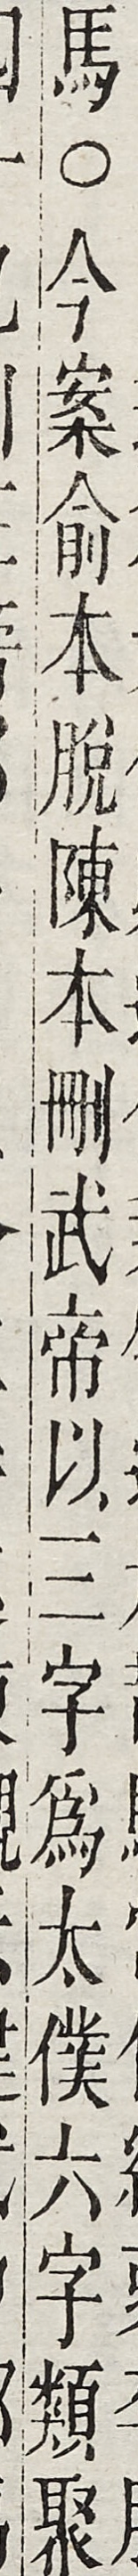馬○今案俞本脫陳本刪武帝以三字為太僕六字類聚
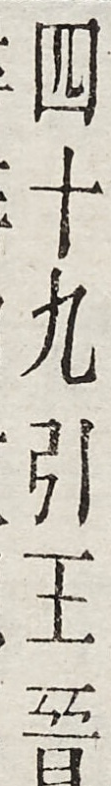四十九引王晉
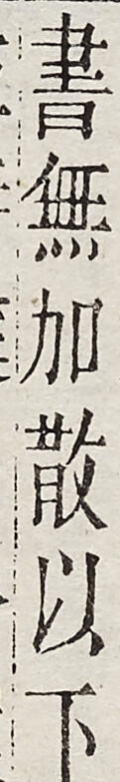書無加散以下
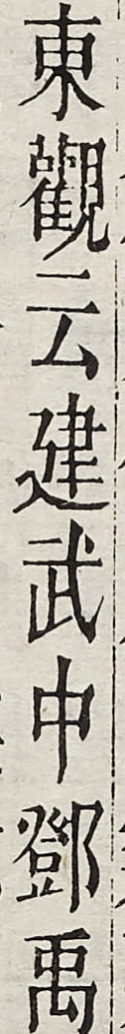東觀雲建武中鄧禹
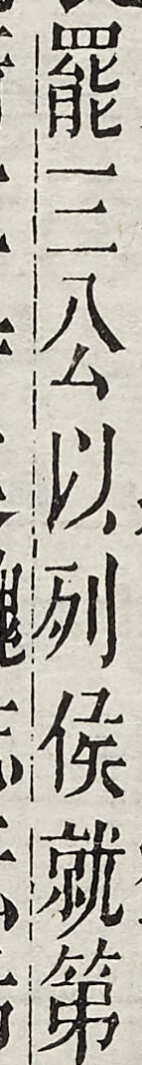罷三公以列侯就第
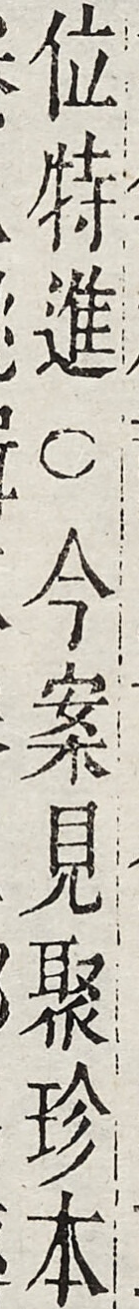位特進○今案見聚珍本
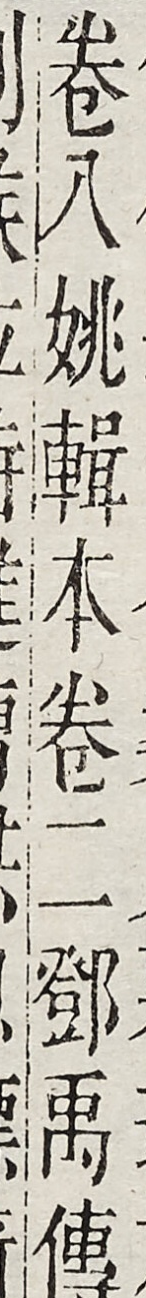卷八姚輯本卷二鄧禹傳
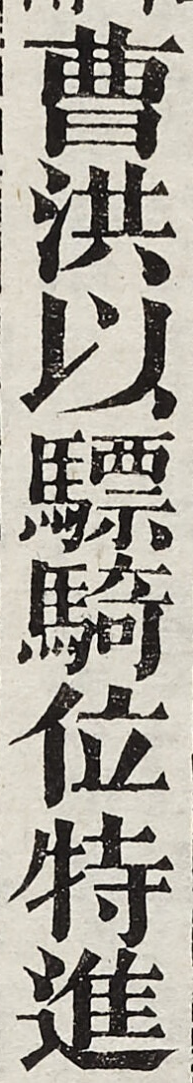曹洪以驃騎位特進
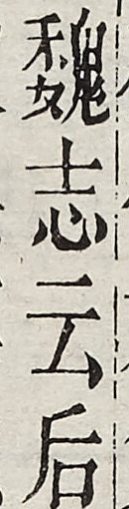魏志云後
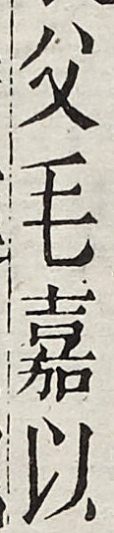父毛嘉以
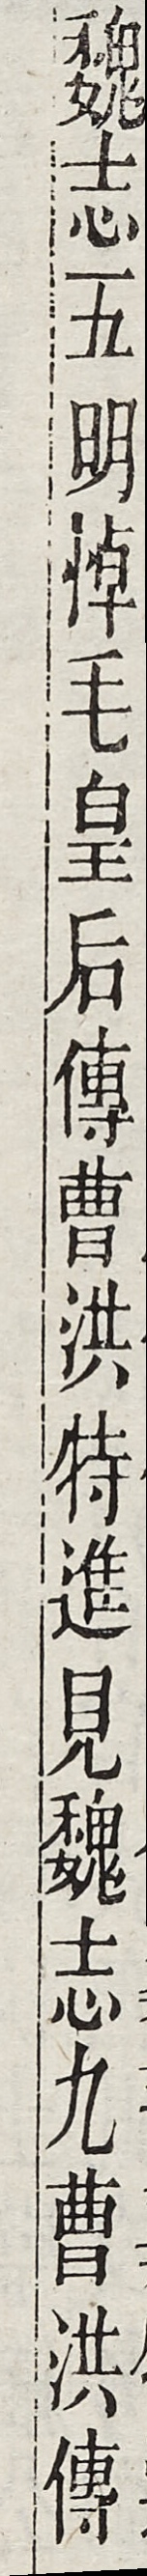魏志五明悼毛皇后傳曹洪特進見魏志九曹洪傳
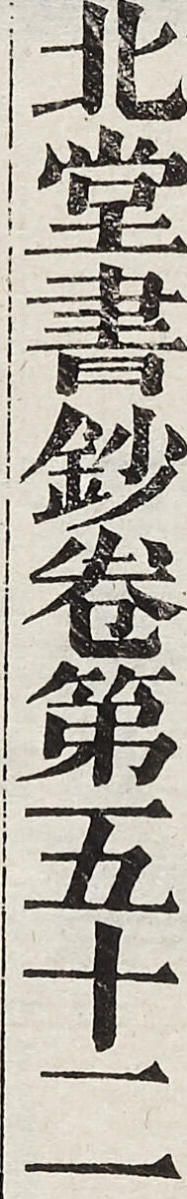北堂書鈔卷第五十二
